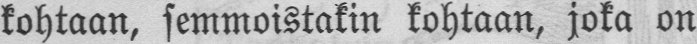kohtaan, semmoistakin kohtaan, joka on
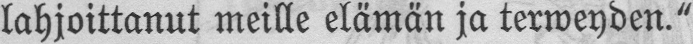lahjoittanut meille elämän ja terweyden."
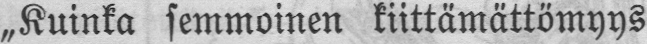„Kuinka semmoinen kiittämättömyys
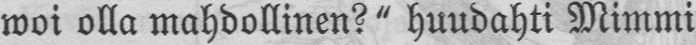woi olla mahdollinen?" huudahti Mimmi
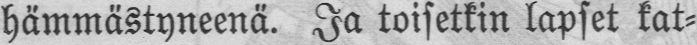hämmästyneenä. Ja toisetkin lapset kat-
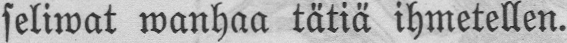seliwat wanhaa tätiä ihmetellen.
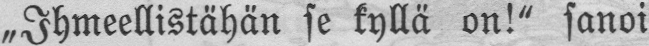„Ihmeellistähän se kyllä on!" sanoi
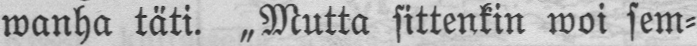wanha täti. „Mutta sittenkin woi sem-
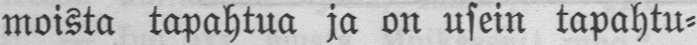moista tapahtua ja on usein tapahtu-
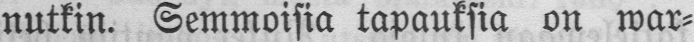nutkin. Semmoisia tapauksia on war-
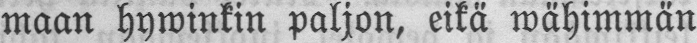maan hywinkin paljon, eikä wähimmän
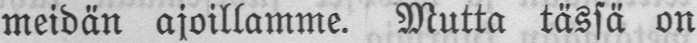meidän ajoillamme. Mutta tässä on
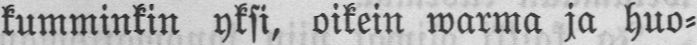kumminkin yksi, oikein warma ja huo-
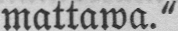mattawa."
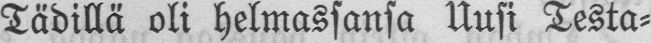Tädillä oli helmassansa Uusi Testa-
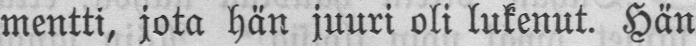mentti, jota hän juuri oli lukenut. Hän
